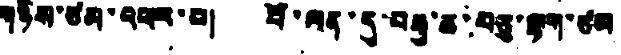གཉིས་ཙམ་འཕར་བ། པོ་ལན་དུ་བརྒྱ་ཆ་བཅུ་ལྟག་ཙམ
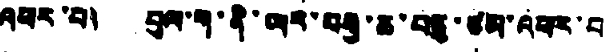འཕར་བ། པུལ་ག་ནི་ཡར་བརྒྱ་ཆ་བཅུ་ཙམ་འཕར་བ
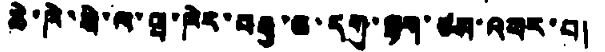ཆེ་ཁེ་སེ་ལ་ཝ་ཁེར་བརྒྱ་ཆ་དགུ་ལྷག་ཙམ་འཕར་བ།
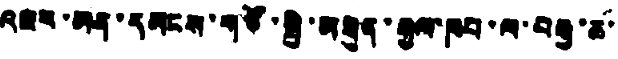འཇར་མན་དམངས་གཙོ་སྤྱི་མཐུན་རྒྱལ་ཁབ་ལ་བརྒྱ་ཆ་
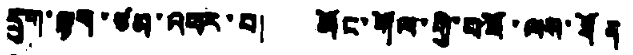དྲུག་ལྷག་ཙམ་འཕར་བ། མོང་གོལ་གྱི་བཟོ་ལས་ཐོན
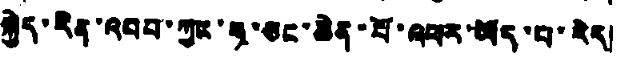སྐྱེད་རིན་འབབ་ཀྱང་ཧ་ཅང་ཆེན་པོ་འཕར་ཡོད་པ་རེད།
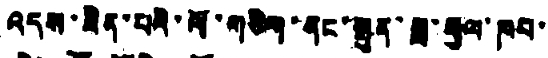འདས་ཟིན་པའི་ལོ་གཅིག་ནང་སྤུན་ཟླ་རྒྱལ་ཁབ་
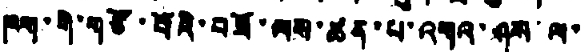ཁག་གི་གཙོ་བོའི་བཟོ་ལས་ཚན་པ་འགའ་ཤས་ལ་
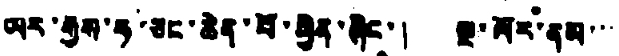ཡར་རྒྱས་ཧ་ཅང་ཆེན་པོ་ཕྱིན་ཞིང་། སྔ་ལོར་ནམ་་་
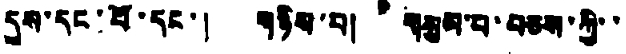དུས་དང་པོ་དང་། གཉིས་པ། གསམ་པ་གཅས་ཀྱི་་
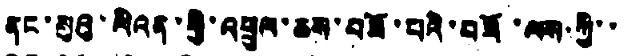ནང་སུའུ་ལིའན་གྱི་འཕྲུལ་ཆས་བཟོ་པའི་བཟོ་ལས་ཀྱི་་
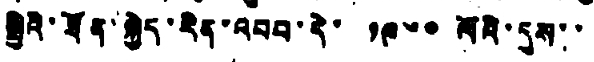སྤྱིའི་ཐོན་སྐྱེད་རིན་འབབ་དེ་ ༡༩༦༠ ལོའི་དུས་་
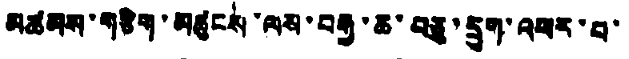མཚམས་གཅིག་མཚུངས་ལས་བརྒྱ་ཆ་བཅུ་དྲུག་འཕར་བ་
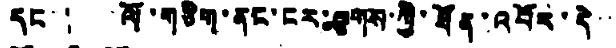དང་། ལོ་གཅིག་ནང་ངར་ལྕགས་ཀྱི་ཐོན་འབོར་དེ་
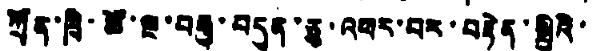ཀྲོན་ཁྲི་ཚོ་ལྔ་བརྒྱ་བདུན་ཅུ་འཕར་བར་བརྟེན་སྤྱིའི་
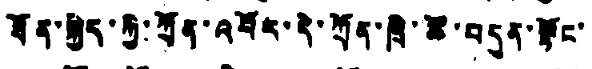ཐོན་སྐྱེད་ཀྱི་ཀྲོན་འབོར་དེ་ཀྲོན་ཁྲི་ཚོ་བདུན་སྟོང་
